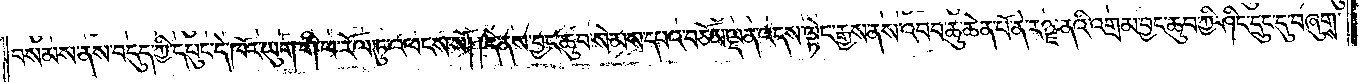བསམས་ནས་བདུད་ཀྱི་དཔུང་དེ་ཁོར་ཡུག་གི་ཕ་རོལ་ཏུ་འཕངས་སོ། །དེ་ནས་བྱང་ཆུབ་སེམས་དཔའ་བཅོམ་ལྡན་འདས་ལྟེང་རྒྱས་ནས་འབབ་ཆུ་ཆེན་པོ་ནེ་རཉྫ་ནའི་འགྲམ་བྱང་ཆུབ་ཀྱི་ཤིང་དྲུང་དུ་བཞུགས་
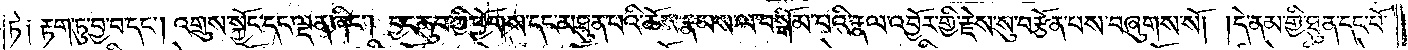ཏེ༑ རྟག་ཏུ་བྱ་བ་དང༌། འགྲུས་སྐྱོང་དང་ལྡན་ཞིང༌། བྱང་ཆུབ་ཀྱི་ཕྱོགས་དང་མཐུན་པའི་ཆོས་རྣམས་ལ་བསྒོམ་པའི་རྣལ་འབྱོར་གྱི་རྗེས་སུ་བརྩོན་པས་བཞུགས་སོ། །དེ་ནམ་གྱི་ཐུན་དང་པོ་
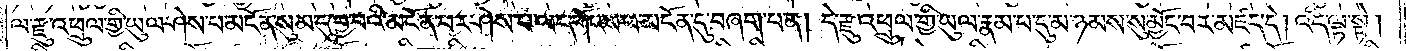ལ་རྫུ་འཕྲུལ་གྱི་ཡུལ་ཤེས་པ་མངོན་སུམ་དུ་བྱ་བའི་མངོན་པར་ཤེས་པ་ལ་དགོངས་པ་མངོན་དུ་བཞག་པ་ན། དེ་རྫུ་འཕྲུལ་གྱི་ཡུལ་རྣམ་པ་དུ་མ་ཉམས་སུ་མྱོང་བར་མཛད་དེ། འདི་ལྟ་སྟེ།
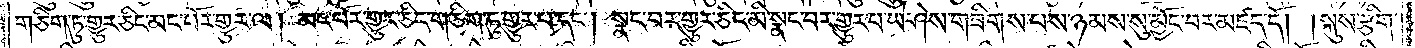གཅིག་ཏུ་གྱུར་ཅིང་མང་པོར་གྱུར་ལ། མང་པོར་གྱུར་ཅིང་གཅིག་ཏུ་གྱུར་པ་དང༌། སྣང་བར་གྱུར་ཅིང་མི་སྣང་བར་གྱུར་པ་ཡེ་ཤེས་གཟིགས་པས་ཉམས་སུ་མྱོང་བར་མཛད་དོ། །སྐུས་རྩིག་
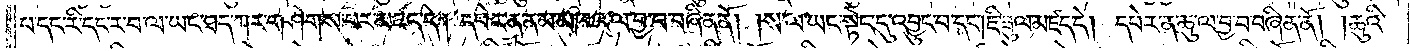པ་དང་རི་དང་ར་བ་ལ་ཡང་ཐད་ཀར་གཤེགས་པར་མཛད་དེ། དཔེར་ན་ནམ་མཁའ་ལ་བྱ་བ་བཞིན་ནོ། །ས་ལ་ཡང་སྟེང་དུ་འབྱུང་བ་དང༌། ཇི་ཟུལ་མཛད་དེ། དཔེར་ན་ཆུ་ལ་བྱ་བ་བཞིན་ནོ། །ཆུའི་
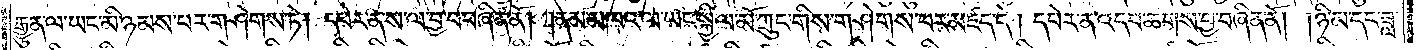རྒྱུན་ལ་ཡང་མི་ཉམས་པར་གཤེགས་ཏེ། དཔེར་ན་ས་ལ་བྱ་བ་བཞིན་ནོ། །ནམ་མཁའ་ལ་ཡང་སྐྱིལ་མོ་ཀྲུང་གིས་གཤེགས་པར་མཛད་དེ། དཔེར་ན་འདབ་ཆགས་བྱ་བཞིན་ནོ། །ཉི་མ་དང་ཟླ་
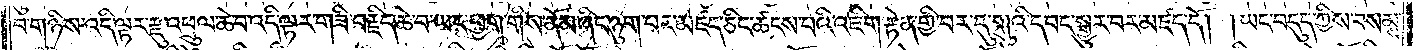བ་གཉིས་འདི་ལྟར་རྫུ་འཕྲུལ་ཆེ་བ་འདི་ལྟར་གཟིགས་བརྗིད་ཆེ་བ་ཡང་ཕྱག་གིས་ནོམ་ཞིང་ཉུག་པར་མཛད་ཅིང་ཚངས་པའི་འཇིག་རྟེན་གྱི་བར་དུ་སྐུའི་དབང་སྒྱུར་བར་མཛད་དོ། །ཡང་བདུད་ཀྱིས་བསམས་
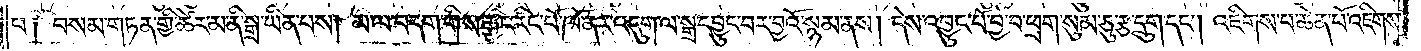པ༑ བསམ་གཏན་གྱི་ཚེར་མ་ནི་སྒྲ་ཡིན་པས། མ་ལ་བདག་གིས་རྒྱང་རིང་པོ་ཁོ་ནར་འདུག་ལ་སྒྲ་དབྱུང་བར་བྱའོ་སྙམ་ནས། དེས་འབྱུང་པོ་བྱེ་བ་ཕྲག་སུམ་ཅུ་རྩ་དྲུག་དང༌། འཇིགས་པ་ཆེན་པོ་འཇིགས་
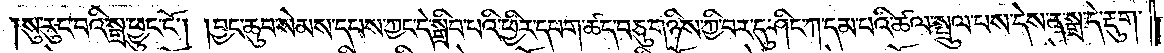སུ་རུང་བའི་སྒྲ་ཕྱུང་ངོ༌། །བྱང་ཆུབ་སེམས་དཔས་ཀྱང་དེ་སྒྲིབ་པའི་ཕྱིར་དཔག་ཚད་བཅུ་གཉིས་ཀྱི་བར་དུ་ཤིང་ཀ་དམ་པའི་ཚལ་སྤྲུལ་པས་དེས་ན་སྒྲ་དེ་རྡུག་
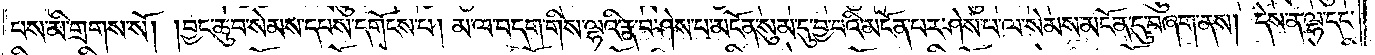པས་མི་གྲགས་སོ། །བྱང་ཆུབ་སེམས་དཔས་དགོངས་པ། མ་ལ་བདག་གིས་ལྷའི་རྣ་བ་ཤེས་པ་མངོན་སུམ་དུ་བྱ་བའི་མངོན་པར་ཤེས་པ་ལ་སེམས་མངོན་དུ་བཞག་ནས། དེས་ན་ལྷ་དང་
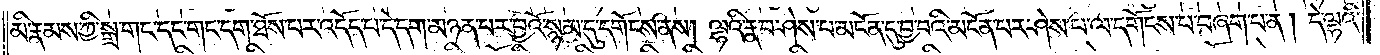མི་རྣམས་ཀྱི་སྒྲ་གང་དང་གང་དག་ཐོས་པར་འདོད་པ་དེ་དག་མཉན་པར་བྱའོ་སྙམ་དུ་དགོངས་ནས། ལྷའི་རྣ་བ་ཤེས་པ་མངོན་དུ་བྱ་བའི་མངོན་པར་ཤེས་པ་ལ་དགོངས་པ་བཞག་པ་ན། དེ་ལྷའི་
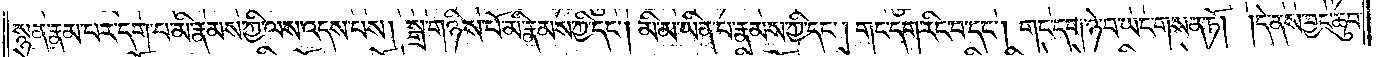སྙན་རྣམ་པར་དག་པ་མི་རྣམས་ཀྱི་ལས་འདས་པས། སྒྲ་གཉིས་པོ་མི་རྣམས་ཀྱི་དང༌། མི་མ་ཡིན་པ་རྣམས་ཀྱི་དང༌། གང་དག་རིང་བ་དང༌། གང་དག་ཉེ་བ་ཡང་གསན་ཏོ། །དེ་ནས་བྱང་ཆུབ་
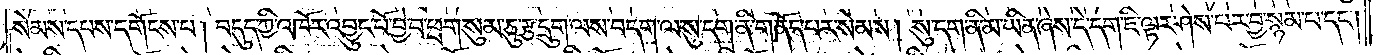སེམས་དཔས་དགོངས་པ། བདུད་ཀྱི་འཁོར་འབྱུང་པོ་བྱེ་བ་ཕྲག་སུམ་ཅུ་རྩ་དྲུག་ལས་བདག་ལ་སུ་དག་ནི་གནོད་པར་སེམས། སུ་དག་ནི་མ་ཡིན་ཞེས་དེ་དག་ཇི་ལྟར་ཤེས་པར་བྱ་སྙམ་པ་དང༌།
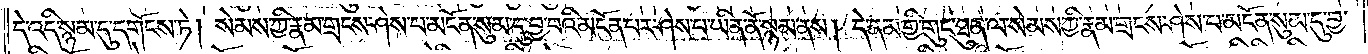དེ་འདི་སྙམ་དུ་དགོངས་ཏེ། སེམས་ཀྱི་རྣམ་གྲངས་ཤེས་པ་མངོན་སུམ་དུ་བྱ་བའི་མངོན་པར་ཤེས་པ་ཡིན་ནོ་སྙམ་ནས། དེ་ནམ་གྱི་གུང་ཐུན་ལ་སེམས་ཀྱི་རྣམ་གྲངས་ཤེས་པ་མངོན་སུམ་དུ་བྱ་
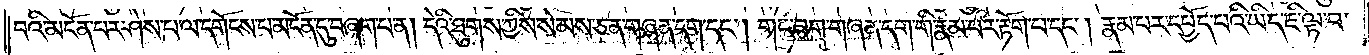བའི་མངོན་པར་ཤེས་པ་ལ་དགོངས་པ་མངོན་དུ་བཞག་པ་ན། དེའི་ཐུགས་ཀྱིས་སེམས་ཅན་གཞན་དག་དང༌། གང་ཟག་གཞན་དག་གི་རྣམ་པར་རྟོག་པ་དང༌། རྣམ་པར་དཔྱོད་པའི་ཡིད་ཇི་ལྟ་བ་
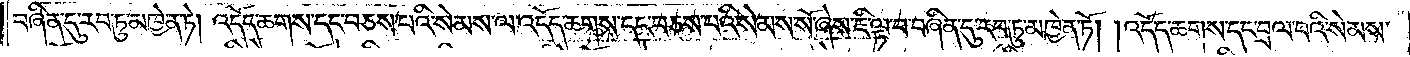བཞིན་དུ་རབ་ཏུ་མཁྱེན་ཏེ། འདོད་ཆགས་དང་བཅས་པའི་སེམས་ལ་འདོད་ཆགས་དང་བཅས་པའི་སེམས་སོ་ཞེས་ཇི་ལྟ་བ་བཞིན་དུ་རབ་ཏུ་མཁྱེན་ཏོ། །འདོད་ཆགས་དང་བྲལ་བའི་སེམས་
